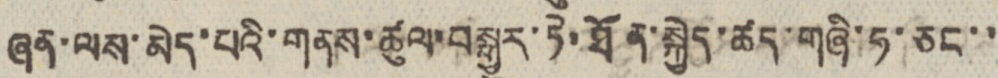ཞན་ལས་མེད་པའི་གནས་ཚུལ་བསྒྱུར་ཏེ་ཐོན་སྐྱེད་ཚད་གཞི་ཧ་ཅང་་
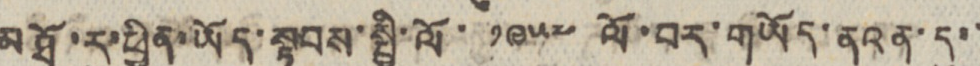མཐོ་རུ་ཕྱིན་ཡོད་སྟབས་སྤྱི་ལོ་ ༡༩༥༧ ལོ་བར་གཡོད་ནའན་དུ་་
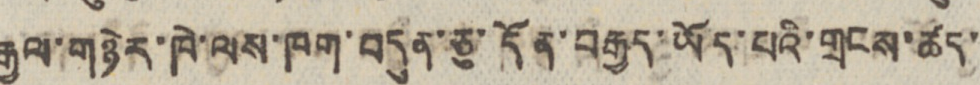རྒྱལ་གཉེར་ཁེ་ལས་ཁག་བདུན་ཅུ་དོན་བརྒྱད་ཡོད་པའི་གྲངས་ཚད་
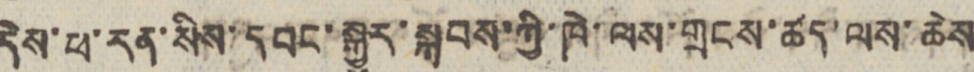དེས་ཕ་རན་སིས་དབང་སྒྱུར་སྐབས་ཀྱི་ཁེ་ལས་གྲངས་ཚད་ལས་ཆེས་
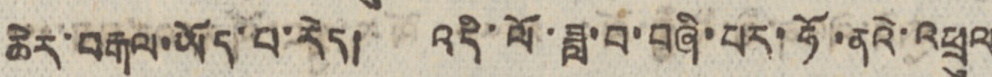ཆེར་བརྒལ་ཡོད་པ་རེད། འདི་ལོ་ཟླ་བ་བཞི་པར་ཧོ་ནའེ་འཕྲུལ
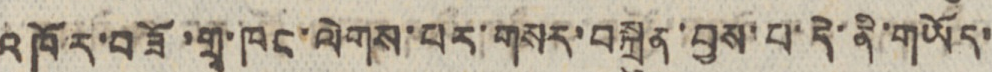འཁོར་བཟོ་གྲྭ་ཁང་ལེགས་པར་གསར་བསྐྲུན་བྱས་པ་དེ་ནི་གཡོད་
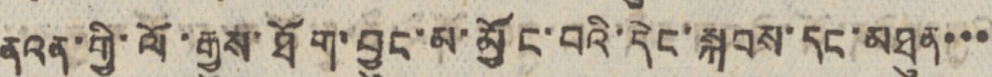ནའན་གྱི་ལོ་རྒྱུས་ཐོག་བྱུང་མ་མྱོང་བའི་དེང་སྐབས་དང་མཐུན་་་
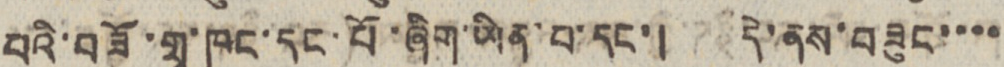པའི་བཟོ་གྲྭ་ཁང་དང་པོ་ཞིག་ཡིན་པ་དང་། དེ་ནས་བཟུང་་་་
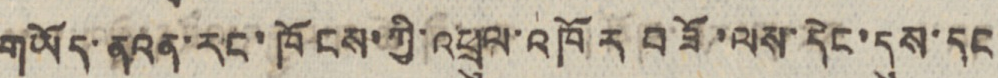གཡོད་ནའན་རང་ཁོངས་ཀྱི་འཕྲུལ་འཁོར བཟོ་ལས་དེང་དུས་དང
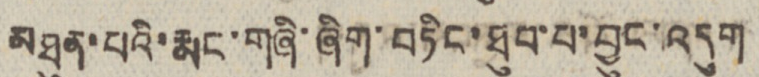མཐུན་པའི་རྨང་གཞི་ཞིག་བཏིང་ཐུབ་པ་བྱུང་འདུག
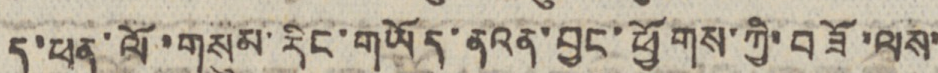ད་ཕན་ལོ་གསུམ་རིང་གཡོད་ནའན་བྱང་ཕྱོགས་ཀྱི་བཟོ་ལས་
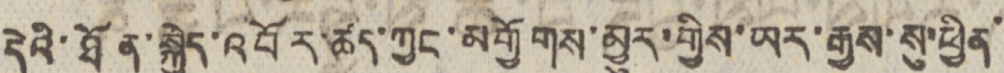དེའི་ཐོན་སྐྱེད་འབོར་ཚད་ཀྱང་མགྱོགས་མྱུར་གྱིས་ཡར་རྒྱས་སུ་ཕྱིན་
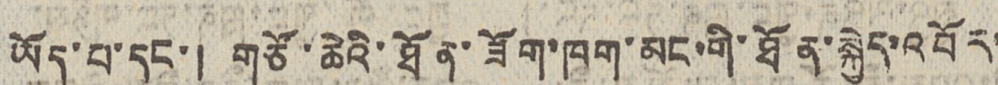ཡོད་པ་དང་། གཙོ་ཆེའི་ཐོན་ཟོག་ཁག་མང་གི་ཐོན་སྐྱེད་འབོར་
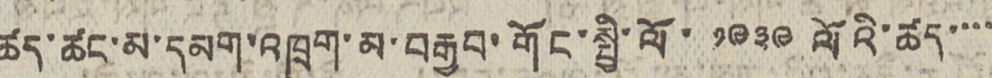ཚད་ཚང་མ་དམག་འཁྲུག་མ་བརྒྱབ་གོང་སྤྱི་ལོ་ ༡༩༣༩ ལོའི་ཚད་་་་
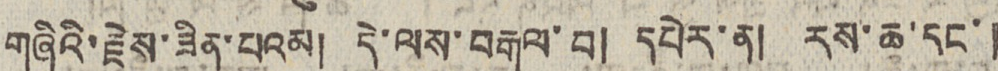གཞིའི་རྗེས་ཟིན་པའམ། དེ་ལས་བརྒལ་བ། དཔེར་ན། རས་ཆ་དང་།
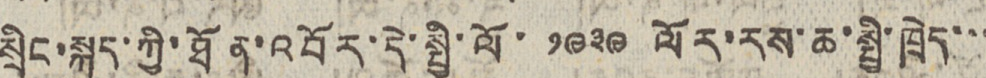སྲིང་སྐུད་ཀྱི་ཐོན་འབོར་དེ་སྤྱི་ལོ་ ༡༩༣༩ ལོར་རས་ཆ་སྤྱི་ཁྲེད་་་
